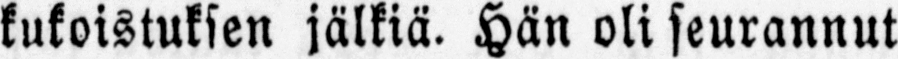kukoistuksen jälkiä. Hän oli seurannut
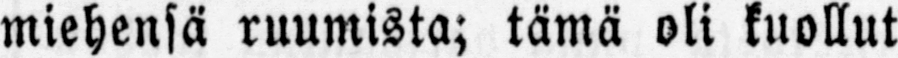miehensä ruumista; tämä oli kuollut
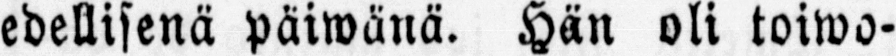edellisenä päiwänä. Hän oli toiwo-
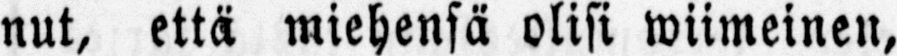nut, että miehensä olisi wiimeinen,
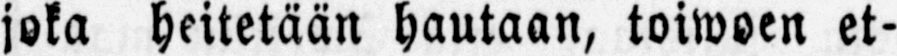joka heitetään hautaan, toiwoen et-
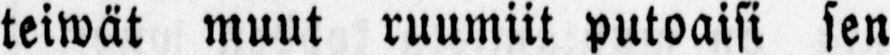teiwät muut ruumiit putoaisi sen
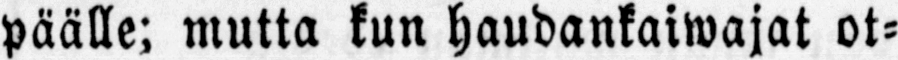päälle; mutta kun haudankaiwajat ot-
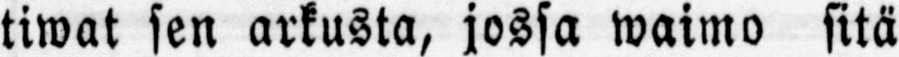tiwat sen arkusta, jossa waimo sitä
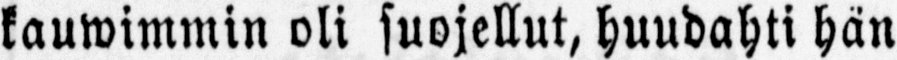kauwimmin oli suojellut, huudahti hän
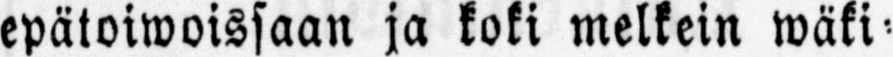epätoiwoissaan ja koki melkein wäki-
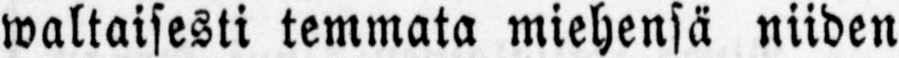waltaisesti temmata miehensä niiden
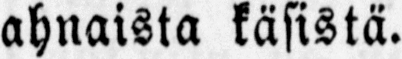ahnaista käsistä.
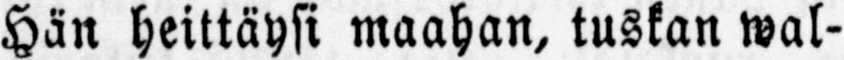Hän heittäysi maahan, tuskan wal-
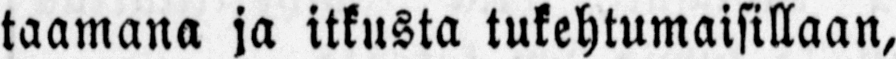taamana ja itkusta tukehtumaisillaan,
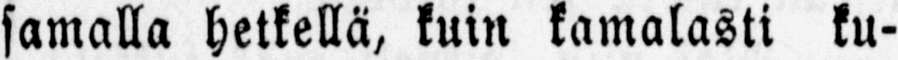samalla hetkellä, kuin kamalasti ku-
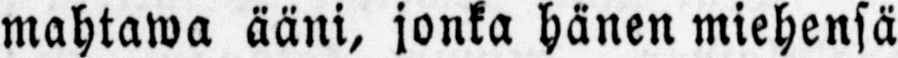mahtawa ääni, jonka hänen miehensä
